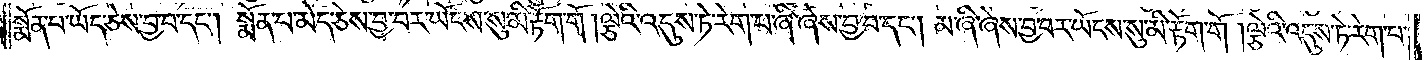སྨོན་པ་ཡོད་ཅེས་བྱ་བ་དང༌། སྨོན་པ་མེད་ཅེས་བྱ་བར་ཡོངས་སུ་མི་རྟོག་གོ །ལྕེའི་འདུས་ཏེ་རེག་པ་ཞི་ཞེས་བྱ་བ་དང༌། མ་ཞི་ཞེས་བྱ་བར་ཡོངས་སུ་མི་རྟོག་གོ །ལྕེའི་འདུས་ཏེ་རེག་པ་
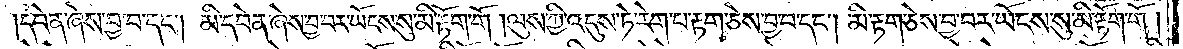དབེན་ཞེས་བྱ་བ་དང༌། མི་དབེན་ཞེས་བྱ་བར་ཡོངས་སུ་མི་རྟོག་གོ །ལུས་ཀྱི་འདུས་ཏེ་རེག་པ་རྟག་ཅེས་བྱ་བ་དང༌། མི་རྟག་ཅེས་བྱ་བར་ཡོངས་སུ་མི་རྟོག་གོ །
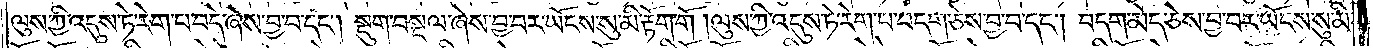ལུས་ཀྱི་འདུས་ཏེ་རེག་པ་བདེ་ཞེས་བྱ་བ་དང༌། སྡུག་བསྔལ་ཞེས་བྱ་བར་ཡོངས་སུ་མི་རྟོག་གོ །ལུས་ཀྱི་འདུས་ཏེ་རེག་པ་བདག་ཅེས་བྱ་བ་དང༌། བདག་མེད་ཅེས་བྱ་བར་ཡོངས་སུ་མི་
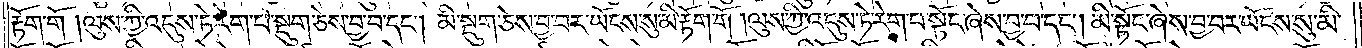རྟོག་གོ །ལུས་ཀྱི་འདུས་ཏེ་རེག་པ་སྡུག་ཅེས་བྱ་བ་དང༌། མི་སྡུག་ཅེས་བྱ་བར་ཡོངས་སུ་མི་རྟོག་གོ །ལུས་ཀྱི་འདུས་ཏེ་རེག་པ་སྟོང་ཞེས་བྱ་བ་དང༌། མི་སྟོང་ཞེས་བྱ་བར་ཡོངས་སུ་མི་
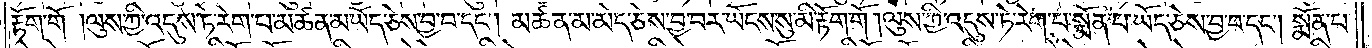རྟོག་གོ །ལུས་ཀྱི་འདུས་ཏེ་རེག་པ་མཚན་མ་ཡོད་ཅེས་བྱ་བ་དང༌། མཚན་མ་མེད་ཅེས་བྱ་བར་ཡོངས་སུ་མི་རྟོག་གོ །ལུས་ཀྱི་འདུས་ཏེ་རེག་པ་སྨོན་པ་ཡོད་ཅེས་བྱ་བ་དང༌། སྨོན་པ་
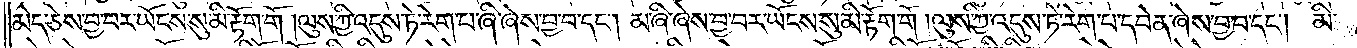མེད་ཅེས་བྱ་བར་ཡོངས་སུ་མི་རྟོག་གོ །ལུས་ཀྱི་འདུས་ཏེ་རེག་པ་ཞི་ཞེས་བྱ་བ་དང༌། མ་ཞི་ཞེས་བྱ་བར་ཡོངས་སུ་མི་རྟོག་གོ །ལུས་ཀྱི་འདུས་ཏེ་རེག་པ་དབེན་ཞེས་བྱ་བ་དང༌། མི་
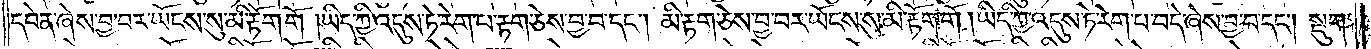དབེན་ཞེས་བྱ་བར་ཡོངས་སུ་མི་རྟོག་གོ །ཡིད་ཀྱི་འདུས་ཏེ་རེག་པ་རྟག་ཅེས་བྱ་བ་དང༌། མི་རྟག་ཅེས་བྱ་བར་ཡོངས་སུ་མི་རྟོག་གོ །ཡིད་ཀྱི་འདུས་ཏེ་རེག་པ་བདེ་ཞེས་བྱ་བ་དང༌། སྡུག་
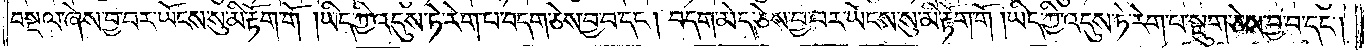བསྔལ་ཞེས་བྱ་བར་ཡོངས་སུ་མི་རྟོག་གོ །ཡིད་ཀྱི་འདུས་ཏེ་རེག་པ་བདག་ཅེས་བྱ་བ་དང༌། བདག་མེད་ཅེས་བྱ་བར་ཡོངས་སུ་མི་རྟོག་གོ །ཡིད་ཀྱི་འདུས་ཏེ་རེག་པ་སྡུག་ཅེས་བྱ་བ་དང༌།
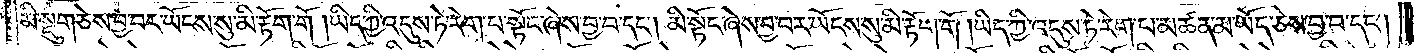མི་སྡུག་ཅེས་བྱ་བར་ཡོངས་སུ་མི་རྟོག་གོ །ཡིད་ཀྱི་འདུས་ཏེ་རེག་པ་སྟོང་ཞེས་བྱ་བ་དང༌། མི་སྟོང་ཞེས་བྱ་བར་ཡོངས་སུ་མི་རྟོག་གོ །ཡིད་ཀྱི་འདུས་ཏེ་རེག་པ་མཚན་མ་ཡོད་ཅེས་བྱ་བ་དང༌།
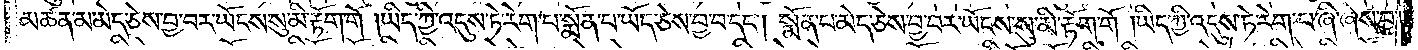མཚན་མ་མེད་ཅེས་བྱ་བར་ཡོངས་སུ་མི་རྟོག་གོ །ཡིད་ཀྱི་འདུས་ཏེ་རེག་པ་སྨོན་པ་ཡོད་ཅེས་བྱ་བ་དང༌། སྨོན་པ་མེད་ཅེས་བྱ་བར་ཡོངས་སུ་མི་རྟོག་གོ །ཡིད་ཀྱི་འདུས་ཏེ་རེག་པ་ཞི་ཞེས་བྱ་
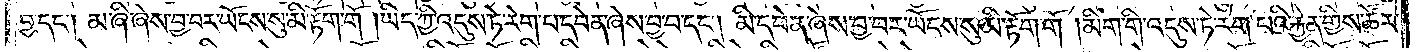བྱ་དང༌། མ་ཞི་ཞེས་བྱ་བར་ཡོངས་སུ་མི་རྟོག་གོ །ཡིད་ཀྱི་འདུས་ཏེ་རེག་པ་དབེན་ཞེས་བྱ་བ་དང༌། མི་དབེན་ཞེས་བྱ་བར་ཡོངས་སུ་མི་རྟོག་གོ །མིག་གི་འདུས་ཏེ་རེག་པའི་རྐྱེན་གྱིས་ཚོར་
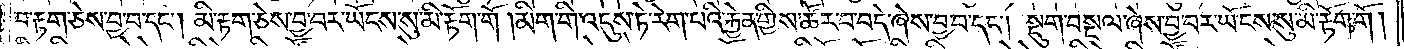བ་རྟག་ཅེས་བྱ་བ་དང༌། མི་རྟག་ཅེས་བྱ་བར་ཡོངས་སུ་མི་རྟོག་གོ །མིག་གི་འདུས་ཏེ་རེག་པའི་རྐྱེན་གྱིས་ཚོར་བ་བདེ་ཞེས་བྱ་བ་དང༌། སྡུག་བསྔལ་ཞེས་བྱ་བར་ཡོངས་སུ་མི་རྟོག་གོ །
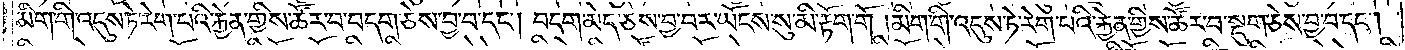མིག་གི་འདུས་ཏེ་རེག་པའི་རྐྱེན་གྱིས་ཚོར་བ་བདག་ཅེས་བྱ་བ་དང༌། བདག་མེད་ཅེས་བྱ་བར་ཡོངས་སུ་མི་རྟོག་གོ །མིག་གི་འདུས་ཏེ་རེག་པའི་རྐྱེན་གྱིས་ཚོར་བ་སྡུག་ཅེས་བྱ་བ་དང༌།
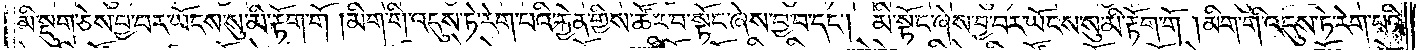མི་སྡུག་ཅེས་བྱ་བར་ཡོངས་སུ་མི་རྟོག་གོ །མིག་གི་འདུས་ཏེ་རེག་པའི་རྐྱེན་གྱིས་ཚོར་བ་སྟོང་ཞེས་བྱ་བ་དང༌། མི་སྟོང་ཞེས་བྱ་བར་ཡོངས་སུ་མི་རྟོག་གོ །མིག་གི་འདུས་ཏེ་རེག་པའི་
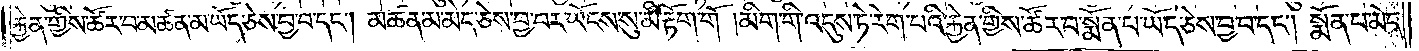རྐྱེན་གྱིས་ཚོར་བ་མཚན་མ་ཡོད་ཅེས་བྱ་བ་དང༌། མཚན་མ་མེད་ཅེས་བྱ་བར་ཡོངས་སུ་མི་རྟོག་གོ །མིག་གི་འདུས་ཏེ་རེག་པའི་རྐྱེན་གྱིས་ཚོར་བ་སྨོན་པ་ཡོད་ཅེས་བྱ་བ་དང༌། སྨོན་པ་མེད་
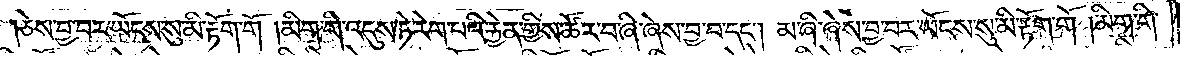ཅེས་བྱ་བར་ཡོངས་སུ་མི་རྟོག་གོ །མིག་གི་འདུས་ཏེ་རེག་པའི་རྐྱེན་གྱིས་ཚོར་བ་ཞི་ཞེས་བྱ་བ་དང༌། མ་ཞི་ཞེས་བྱ་བར་ཡོངས་སུ་མི་རྟོག་གོ །མིག་གི་
